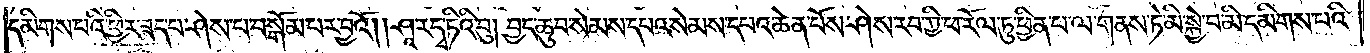དམིགས་པའི་ཕྱིར་ཟད་པ་ཤེས་པ་བསྒོམ་པར་བྱའོ། །ཤཱ་ར་དྭ་ཏིའི་བུ། བྱང་ཆུབ་སེམས་དཔའ་སེམས་དཔའ་ཆེན་པོས་ཤེས་རབ་ཀྱི་ཕ་རོལ་ཏུ་ཕྱིན་པ་ལ་གནས་ཏེ་མི་སྐྱེ་བ་མི་དམིགས་པའི་
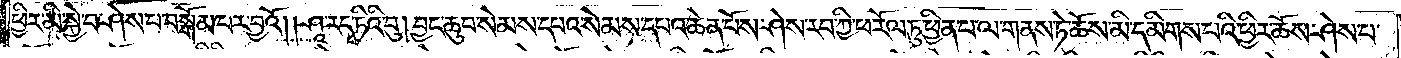ཕྱིར་མི་སྐྱེ་བ་ཤེས་པ་བསྒོམ་པར་བྱའོ། །ཤཱ་ར་དྭ་ཏིའི་བུ། བྱང་ཆུབ་སེམས་དཔའ་སེམས་དཔའ་ཆེན་པོས་ཤེས་རབ་ཀྱི་ཕ་རོལ་ཏུ་ཕྱིན་པ་ལ་གནས་ཏེ་ཆོས་མི་དམིགས་པའི་ཕྱིར་ཆོས་ཤེས་པ་
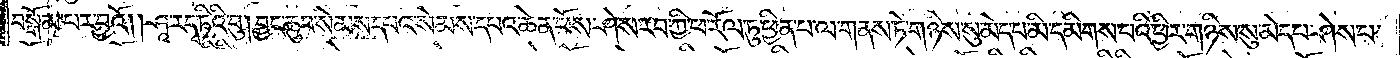བསྒོམ་པར་བྱའོ། །ཤཱ་ར་དྭ་ཏིའི་བུ། བྱང་ཆུབ་སེམས་དཔའ་སེམས་དཔའ་ཆེན་པོས་ཤེས་རབ་ཀྱི་ཕ་རོལ་ཏུ་ཕྱིན་པ་ལ་གནས་ཏེ་གཉིས་སུ་མེད་པ་མི་དམིགས་པའི་ཕྱིར་གཉིས་སུ་མེད་པ་ཤེས་པ་
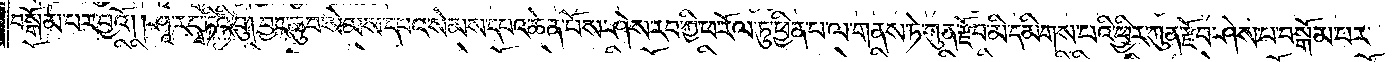བསྒོམ་པར་བྱའོ། །ཤཱ་ར་དྭ་ཏིའི་བུ། བྱང་ཆུབ་སེམས་དཔའ་སེམས་དཔའ་ཆེན་པོས་ཤེས་རབ་ཀྱི་ཕ་རོལ་ཏུ་ཕྱིན་པ་ལ་གནས་ཏེ་ཀུན་རྫོབ་མི་དམིགས་པའི་ཕྱིར་ཀུན་རྫོབ་ཤེས་པ་བསྒོམ་པར་
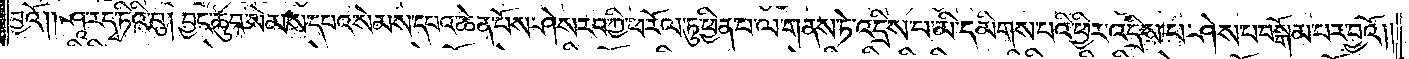བྱའོ། །ཤཱ་ར་དྭ་ཏིའི་བུ། བྱང་ཆུབ་སེམས་དཔའ་སེམས་དཔའ་ཆེན་པོས་ཤེས་རབ་ཀྱི་ཕ་རོལ་ཏུ་ཕྱིན་པ་ལ་གནས་ཏེ་འདྲིས་པ་མི་དམིགས་པའི་ཕྱིར་འདྲིས་པ་ཤེས་པ་བསྒོམ་པར་བྱའོ༎
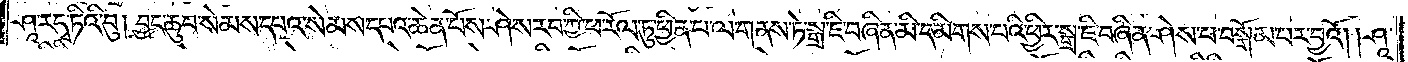ཤཱ་ར་དྭ་ཏིའི་བུ། བྱང་ཆུབ་སེམས་དཔའ་སེམས་དཔའ་ཆེན་པོས་ཤེས་རབ་ཀྱི་ཕ་རོལ་ཏུ་ཕྱིན་པ་ལ་གནས་ཏེ་སྒྲ་ཇི་བཞིན་མི་དམིགས་པའི་ཕྱིར་སྒྲ་ཇི་བཞིན་ཤེས་པ་བསྒོམ་པར་བྱའོ། །ཤཱ་
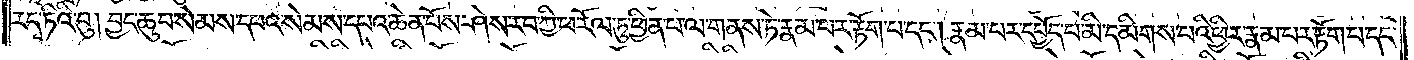ར་དྭ་ཏིའི་བུ། བྱང་ཆུབ་སེམས་དཔའ་སེམས་དཔའ་ཆེན་པོས་ཤེས་རབ་ཀྱི་ཕ་རོལ་ཏུ་ཕྱིན་པ་ལ་གནས་ཏེ་རྣམ་པར་རྟོག་པ་དང༌། རྣམ་པར་དཔྱོད་པ་མི་དམིགས་པའི་ཕྱིར་རྣམ་པར་རྟོག་པ་དང་
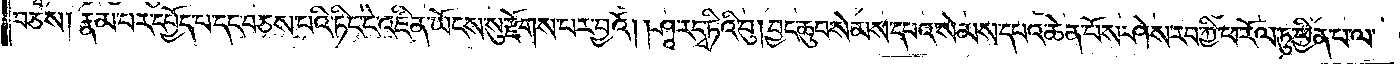བཅས། རྣམ་པར་དཔྱོད་པ་དང་བཅས་པའི་ཏིང་ངེ་འཛིན་ཡོངས་སུ་རྫོགས་པར་བྱའོ། །ཤཱ་ར་དྭ་ཏིའི་བུ། བྱང་ཆུབ་སེམས་དཔའ་སེམས་དཔའ་ཆེན་པོས་ཤེས་རབ་ཀྱི་ཕ་རོལ་ཏུ་ཕྱིན་པ་ལ་
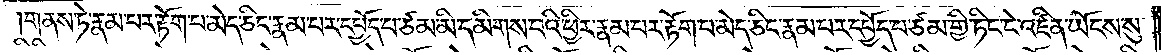གནས་ཏེ་རྣམ་པར་རྟོག་པ་མེད་ཅིང་རྣམ་པར་དཔྱོད་པ་ཙམ་མི་དམིགས་བའི་ཕྱིར་རྣམ་པར་རྟོག་པ་མེད་ཅིང་རྣམ་བར་དཔྱོད་པ་ཙམ་གྱི་ཏིང་ངེ་འཛིན་ཡོངས་སུ་
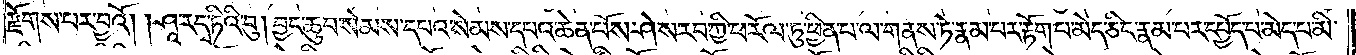རྫོགས་པར་བྱའོ། །ཤཱ་ར་དྭ་ཏིའི་བུ། བྱང་ཆུབ་སེམས་དཔའ་སེམས་དཔའ་ཆེན་པོས་ཤེས་རབ་ཀྱི་ཕ་རོལ་ཏུ་ཕྱིན་པ་ལ་གནས་ཏེ་རྣམ་པར་རྟོག་པ་མེད་ཅིང་རྣམ་པར་དཔྱོད་པ་མེད་པ་མི་
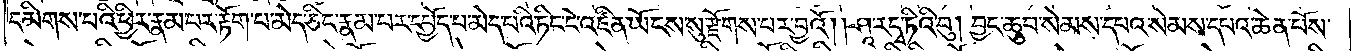དམིགས་པའི་ཕྱིར་རྣམ་པར་རྟོག་པ་མེད་ཅིང་རྣམ་པར་དཔྱོད་པ་མེད་པའི་ཏིང་ངེ་འཛིན་ཡོངས་སུ་རྫོགས་པར་བྱའོ། །ཤཱ་ར་དྭ་ཏིའི་བུ། བྱང་ཆུབ་སེམས་དཔའ་སེམས་དཔའ་ཆེན་པོས་
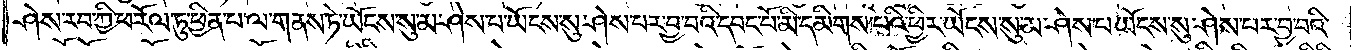ཤེས་རབ་ཀྱི་ཕ་རོལ་ཏུ་ཕྱིན་པ་ལ་གནས་ཏེ་ཡོངས་སུ་མ་ཤེས་པ་ཡོངས་སུ་ཤེས་པར་བྱ་བའི་དབང་པོ་མི་དམིགས་པའི་ཕྱིར་ཡོངས་སུ་མ་ཤེས་པ་ཡོངས་སུ་ཤེས་པར་བྱ་བའི་
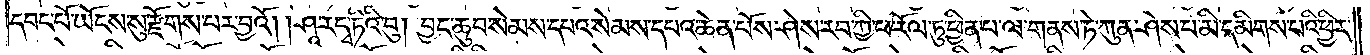དབང་པོ་ཡོངས་སུ་རྫོགས་པར་བྱའོ། །ཤཱ་ར་དྭ་ཏིའི་བུ། བྱང་ཆུབ་སེམས་དཔའ་སེམས་དཔའ་ཆེན་པོས་ཤེས་རབ་ཀྱི་ཕ་རོལ་ཏུ་ཕྱིན་པ་ལ་གནས་ཏེ་ཀུན་ཤེས་པ་མི་དམིགས་པའི་ཕྱིར་
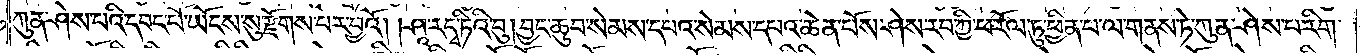ཀུན་ཤེས་པའི་དབང་པོ་ཡོངས་སུ་རྫོགས་པར་བྱའོ། །ཤཱ་ར་དྭ་ཏིའི་བུ། བྱང་ཆུབ་སེམས་དཔའ་སེམས་དཔའ་ཆེན་པོས་ཤེས་རབ་ཀྱི་ཕ་རོལ་ཏུ་ཕྱིན་པ་ལ་གནས་ཏེ་ཀུན་ཤེས་པ་རིག་
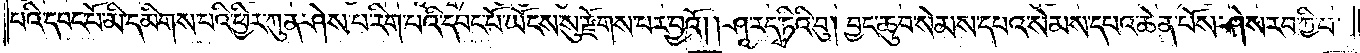པའི་དབང་པོ་མི་དམིགས་པའི་ཕྱིར་ཀུན་ཤེས་པ་རིག་པའི་དབང་པོ་ཡོངས་སུ་རྫོགས་པར་བྱའོ། །ཤཱ་ར་དྭ་ཏིའི་བུ། བྱང་ཆུབ་སེམས་དཔའ་སེམས་དཔའ་ཆེན་པོས་ཤེས་རབ་ཀྱི་ཕ་
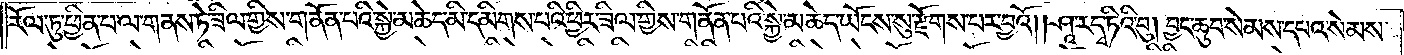རོལ་ཏུ་ཕྱིན་པ་ལ་གནས་ཏེ་ཟིལ་གྱིས་གནོན་པའི་སྐྱེ་མཆེད་མི་དམིགས་པའི་ཕྱིར་ཟིལ་གྱིས་གནོན་པའི་སྐྱེ་མཆེད་ཡོངས་སུ་རྫོགས་པར་བྱའོ། །ཤཱ་ར་དྭ་ཏིའི་བུ། བྱང་ཆུབ་སེམས་དཔའ་སེམས་
